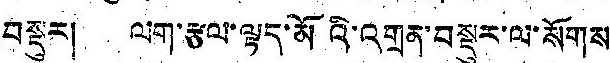བསྡུར། ལག་རྩལ་ལྟད་མོའི་འགྲན་བསྡུར་ལ་སོགས
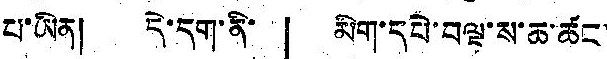པ་ཡིན། དེ་དག་ནི་ 「 མིག་དཔེ་བལྟ་ས་ཆ་ཚང་
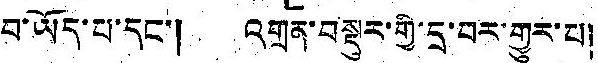བ་ཡོད་པ་དང་། འགྲན་བསྡུར་གྱི་དྲ་བར་གྱུར་པ།
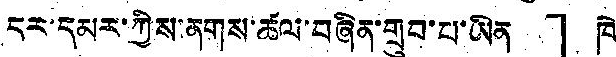དར་དམར་ཀྱིས་ནགས་ཚལ་བཞིན་གྲུབ་པ་ཡིན 」 ཁེ
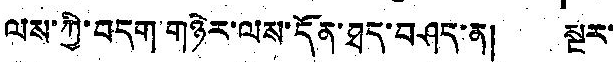ལས་ཀྱི་བདག་གཉེར་ལས་དོན་ཐད་བཤད་ན། སྔར་
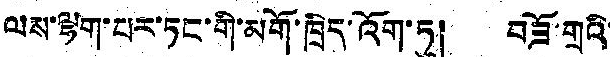ལས་ལྷག་པར་ཏང་གི་མགོ་ཁྲིད་འོག་ཏུ། བཟོ་གྲའི་
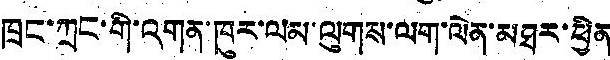ཁྲང་ཀྲང་གི་འགན་ཁུར་ལམ་ལུགས་ལག་ལེན་མཐར་ཕྱིན
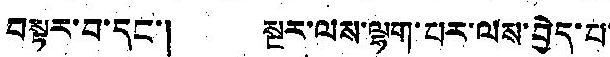བསྟར་བ་དང་། སྔར་ལས་ལྷག་པར་ལས་བྱེད་པ་
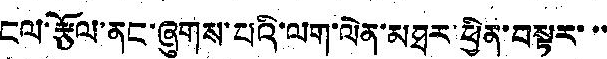ངལ་རྩོལ་ནང་ཞུགས་པའི་ལག་ལེན་མཐར་ཕྱིན་བསྟར་་་
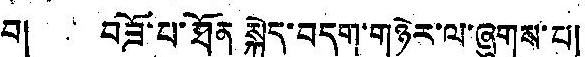བ། བཟོ་པ་ཐོན སྐྱོད་བདག་གཉེར་ལ་ཞུགས་པ།
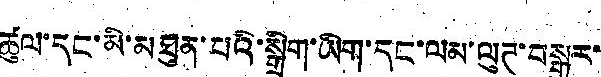ཚུལ་དང་མི་མཐུན་པའི་སྒྲིག་ ཡིག་དང་ལམ་ལུཊ་བསྒྱུར་
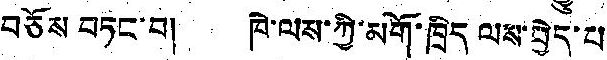བཅོས བཏང་བ། ཁེ་ལས་ཀྱི་མགོ་ཁྲིད ལས་བྱེད་པ
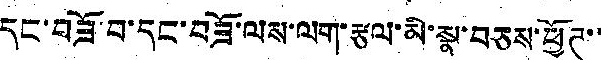དང་བཟོ་བ་དང་བཟོ་ལས་ལག་རྩལ་མི་སྣ་བཅས་ཕྱོཊ་་
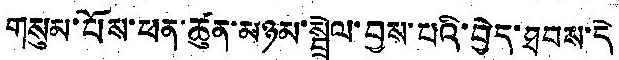གསུམ་པོས་ཕན་ཚུན་མཉམ་སྦྲེལ་བྱས་པའི་བྱེད་ཐབས་དེ
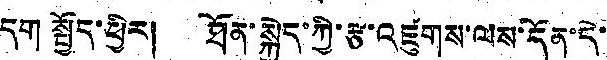དག སྤྱོད་ཕྱིར། ཐོན་སྐྱེད་ཀྱི་རྩ་འཛུགས་ལས་དོན་དེ་
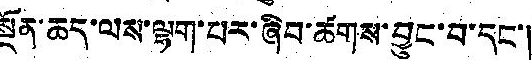སྔོན་ཆད་ལས་ལྷག་པར་ཞིབ་ཚགས་བྱུང་བ་དང་།
